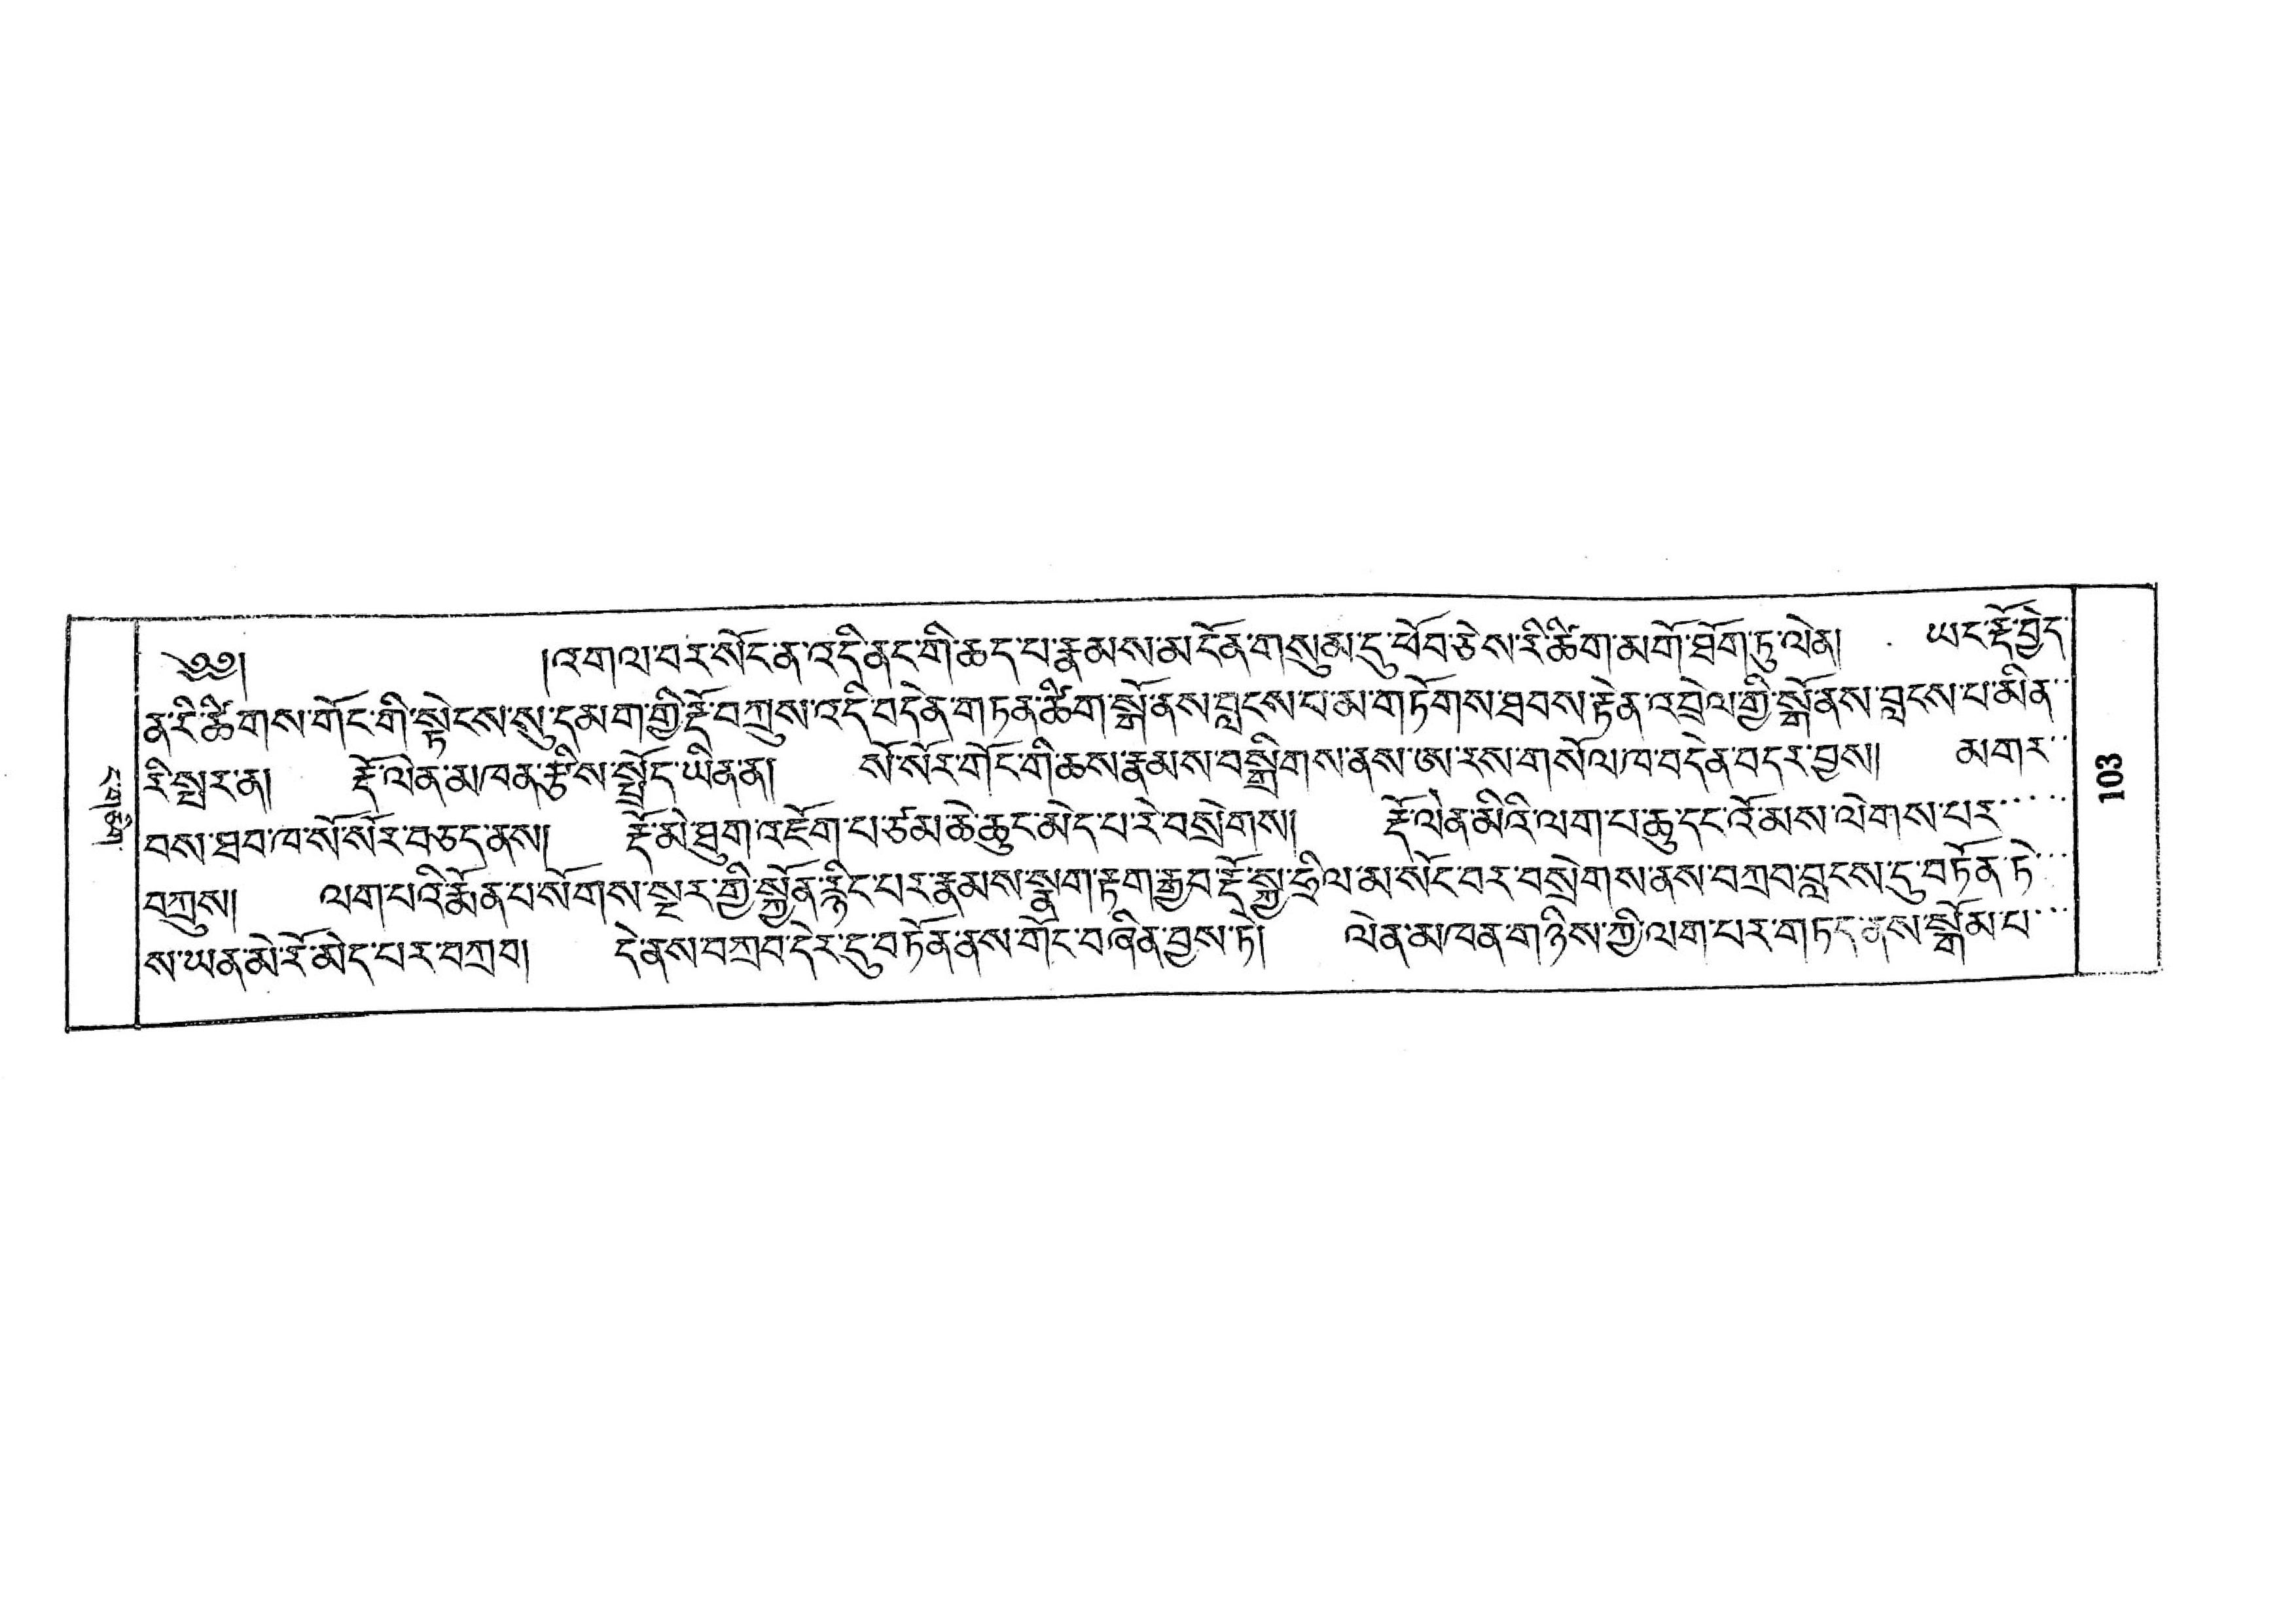ང་གཅིག་
༄༅།  །འགལ་བར་སོང་ན་འདི་ནང་གི་ཆད་པ་རྣམས་མངོན་གསུམ་ད་ཕོབ་ཅེས་རི་ཚིག་མགོ་ཐོག་ཏུ་ལེན། ཡང་རྡོ་བྱེད་
ན་རི་ཚིགས་གོང་གི་སྟེངས་སུ་དམག་གྱི་རྡོ་བཀྲུས་འདི་བདེན་གཏན་ཚིག་སྒོ་ནས་བླངས་པ་མ་གཏོགས་ཐབས་རྟེན་འབྲེལ་གྱི་སྒོ་ནས་བླངས་པ་མིན་
རི་སྤར་ན། རྡོ་ལེན་མཁན་རྩིས་སྤྲོད་ཡིན་ན། སོ་སོར་གོང་གི་ཆས་རྣམས་བསྒྲིགས་ནས་ཨ་རས་གསོལ་ཁ་བདེན་བདར་བྱས། མགར་་
བས་ཐབ་ཁ་སོ་སོར་བཅད་ནས། རྡོ་མེ་ཐུག་འཇོག་པ་ཙམ་ཆེ་ཆུང་མེད་པ་རེ་བསྲེགས། རྡོ་ལེན་མིའི་ལག་པ་ཆུ་དང་འོ་མས་ལེགས་པར་་་་་
བཀྲུས། ལག་པའི་རྨོན་པ་སོགས་སྔར་གྱི་སྐྱོན་རྙིང་པར་རྣམས་སྣག་རྟག་རྒྱབ་རྡོ་སྐྱ་ཧྲིལ་མ་སོང་བར་བསྲེགས་ནས་བཀྲབ་བླངས་དུ་བཏོན་ཏེ་་་
ས་ཡན་མེ་རོ་མེད་པར་བཀྲབ། དེ་ནས་བཀྲབ་དེར་དུ་བཏོན་ནས་གོང་བཞིན་བྱས་ཏེ། ལེན་མཁན་གཉིས་ཀྱི་ལག་པར་གཏད་ནས་སྒོམ་པ་་་
